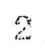2
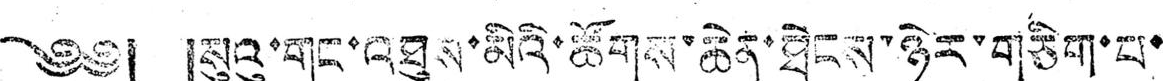༄༅། །སུའུ་གུང་འཐུས་མིའི་ཚོགས་ཆེན་ཐེངས་ཉེར་གཅིག་པ་
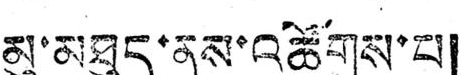མུ་མཐུད་ནས་འཚོགས་པ།
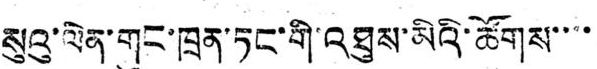སུའུ་ལེན་གུང་ཁྲན་ཏང་གི་འཐུས་མིའི་ཚོགས་་་་
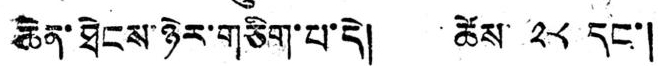ཆེན་ཐེངས་ཉེར་གཅིག་པ་དེ། ཚེས་ ༢༨ དང་།
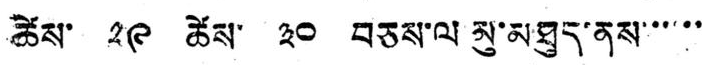ཚེས་ ༢༩ ཚེས་ ༣༠ བཅས་ལ་མུ་མཐུད་ནས་་་་་་
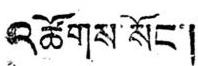འཚོགས་སོང་།
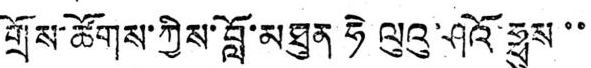གྲོས་ཚོགས་ཀྱིས་བློ་མཐུན ཧེ ལུའུ་ཤའོ་ཧྥུས་་
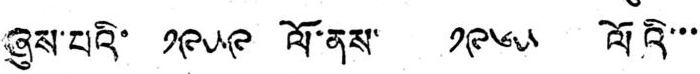ཞུས་པའི་ ༡༩༥༩ ལོ་ནས་ ༡༩༦༥ ལོའི་་་
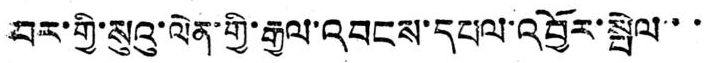བར་གྱི་སུའུ་ལེན་གྱི་རྒྱལ་འབངས་དཔལ་འབྱོར་སྤེལ་་
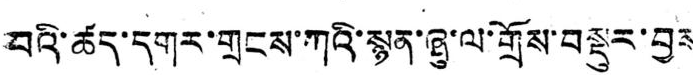བའི་ཚད་དགར་གྲངས་ཀའི་སྙན་ཞུ་ལ་གྲོས་བསྡུར་བྱས
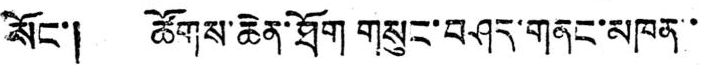སོང་། ཚོགས་ཆེན་ཐོག གསུང་བཤད་གནང་མཁན་་
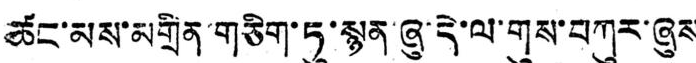ཚང་མས་མགྲིན་གཅིག་ཏུ་སྙན་ཞུ་དེ་ལ་གུས་བཀུར་ཞུས
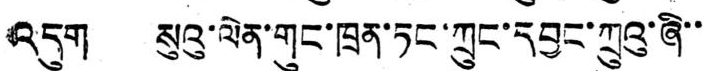འདུག སུའུ་ལེན་གུང་ཁྲན་ཏང་ཀྲུང་དབྱང་ཀྲུའུ་ཞི་་
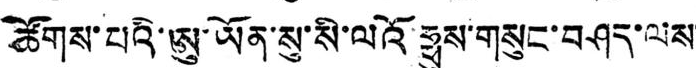ཚོགས་པའི་ཨུ་ཡོན་སུ་སི་ལའོ་ཧྥུས་གསུང་བཤད་ལས་
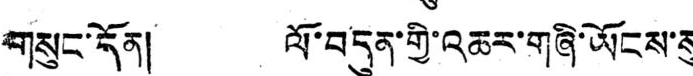གསུང་དོན། ལོ་བདུན་གྱི་འཆར་གཞི་ཡོངས་སུ་
